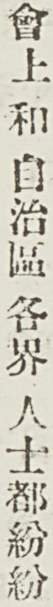會上和 自治區 各界 人士都紛紛
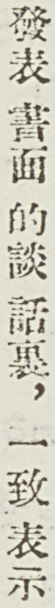發表 書面 的談 話裏，一致表示
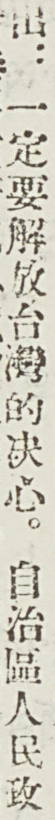出：一定要解放台灣的決心。自治區人民政
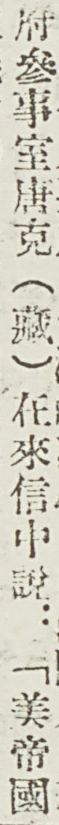府參事室唐克（藏）在來信中說：「美帝國
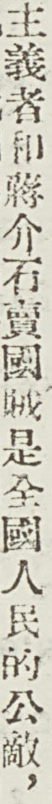主義者和蔣介石賣國賊使全國人民的公敵，
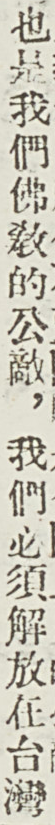也是我們佛敎的公敵，我們必須解放在台灣
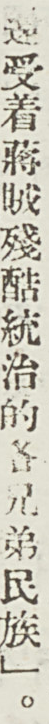遭受着蔣賊殘酷統治的各兄弟民族」。
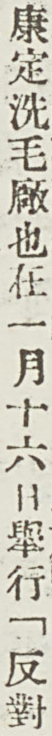康定洗毛廠也在一月十六日舉行「反對
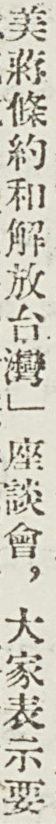美蔣條約和解放台灣」座談會，大家表示要
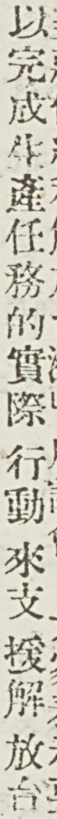以完成生產任務的實際 行動 來支援解放台
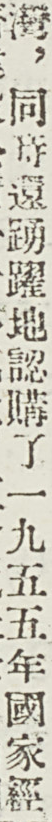灣，同時還踊躍地認購了一九五五年國家經
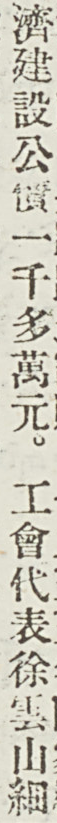濟建設公債一千多萬元。工會代表徐雲山細
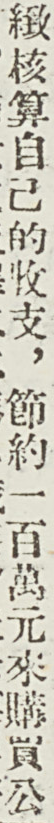緻核算自己的收支，節約一百萬元來購買公
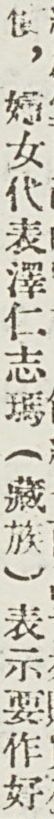債，婦女代表澤仁志瑪（藏族）表示要作好
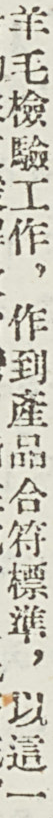羊毛檢驗工作，作到產品合符標準，以這一
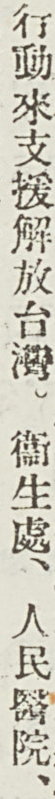行動來支援解放台灣。衛生處、人民醫院、
